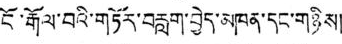ངོ་རྒོལ་བའི་གཏོར་བརླག་བྱེད་མཁན་དང་གཉིས།
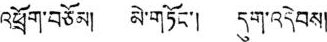འཕྲོག་བཅོམ། མེ་གཏོང་། དུག་འདེབས།
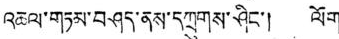འཆལ་གཏམ་བཤད་ནས་དཀྲུགས་ཤིང་། ལོག་
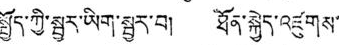སྤྱོད་ཀྱི་སྦྱར་ཡིག་སྦྱར་བ། ཐོན་སྐྱེད་འཛུགས་
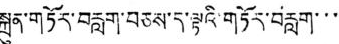སྐྲུན་གཏོར་བརླག་བཅས་ད་ལྟའི་གཏོར་བརླག་་་
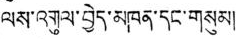ལས་འགུལ་བྱེད་མཁན་དང་གསུམ།
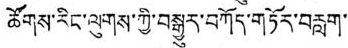ཚོགས་རིང་ལུགས་ཀྱི་བསྒྱུར་བཀོད་གཏོར་བརླག་
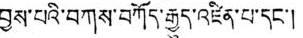བྱས་པའི་བཀས་བཀོད་རྒྱུད་འཛིན་པ་དང་།
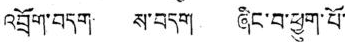འབྲོག་བདག ས་བདག ཞིང་བ་ཕྱུག་པོ་
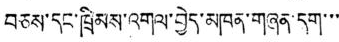བཅས་དང་ཁྲིམས་འགལ་བྱེད་མཁན་གཞན་དག་་་་
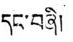དང་བཞི།
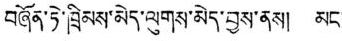བཞོན་ཏེ་ཁྲིམས་མེད་ལུགས་མེད་བྱས་ནས། མང་
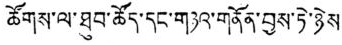ཚོགས་ལ་ཐུབ་ཚོད་དང་གཉའ་གནོན་བྱས་ཏེ་ཉེས་
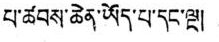པ་ཚབས་ཆེན་ཡོད་པ་དང་ལྔ།
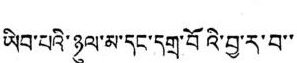ཡིབ་པའི་ཉུལ་མ་དང་དགྲ་བོའི་བྱ་ར་བ་་
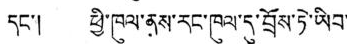དང་། ཕྱི་ཁུལ་ནས་རང་ཁུལ་དུ་བྲོས་ཏེ་ཡིབ་
